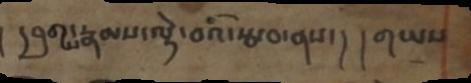། དབུགས་རྣམས་ལྟེ་བའི་རྩ་བ་ནས་། །གཡས
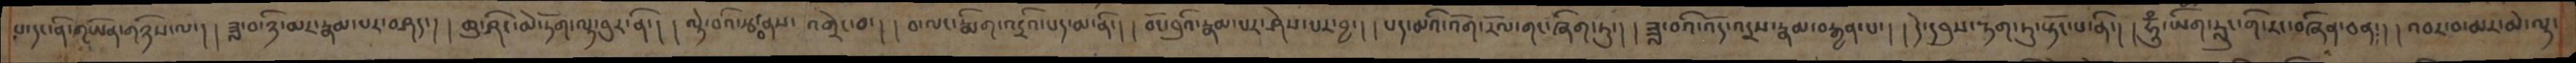པ་དང་ནི་གཡོན་གཉིས་ལ་། །ཟླ་བ་ཉི་མར་རྣམ་པར་བཤད་། །ཆུ་ཤིང་མེ་ཏོག་ལྟ་བུར་ནི་། །ལྟེ་བའི་རྩ་བ་ནས་འགྲེང་བ་། །བ་ལང་རྨིག་འདྲའི་པད་མ་ནི་། །བོང་བུའི་རྣམ་པར་ཤེས་པར་བྱ་། །པད་མའི་འོག་རོལ་གང་ཞིག་ཏུ་། །ཟླ་བའི་འོད་འདྲས་རྣམ་བརྒྱན་པ་། །དེ་དབུས་རྟག་ཏུ་སྟོང་པ་ནི་། །ཧཱུྃ་ཡིག་རླུང་གི་རང་བཞིན་ཅན་། །འབར་བ་མར་མེ་ལྟ་
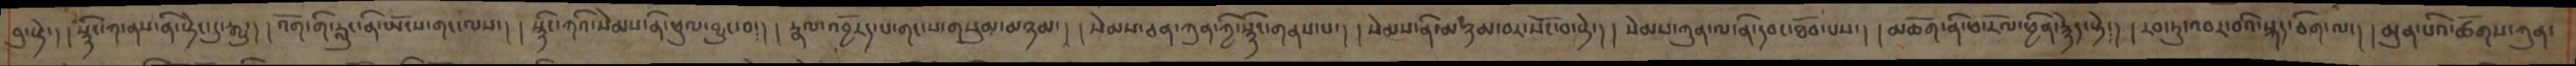བུ་སྟེ་། །སྙིང་ཀ་ནས་ནི་སྟེང་དུ་རྒྱུ་། །འོག་གི་རླུང་ནི་ཡོངས་གང་ལས་། །སྙིང་ཀའི་སེམས་ནི་ཕུལ་བྱུང་བ་། །རྣལ་འབྱོརད་པ་གང་ས་གསུམ་མཉམ་། །སེམས་ཅན་ཀུན་ཀྱི་སྙིང་གནས་པ་། །སེམས་ནི་མཉམ་བར་སོང་བ་སྟེ་། །སེམས་ཀུན་ལ་ནི་དབང་ཐོབ་པས་། །མཆོག་ནི་ཕ་རོལ་ཕྱིན་རྙེད་སྟེ་། །རབ་ཏུ་འབར་བའི་སྐད་ཅིག་ལ་། །མུན་པའི་ཚོགས་ཀུན་
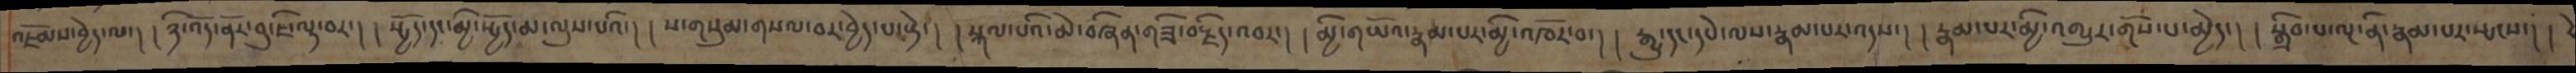འཇོམས་བྱེད་ལ་། །ཉི་འོད་ནོར་བུ་ཇི་ལྟ་བར་། །སྤྱོད་དང་མྱི་སྤྱོད་མ་ལུས་པའི་། །ས་གསུམ་གསལ་བར་བྱེད་པ་སྟེ་། །སྐལ་པའི་མེ་བཞིན་གཟི་བརྗིད་འབར་། །མྱི་གཡོའ་རྣམ་པར་མྱི་འཁོར་བ་། །རྒྱུ་དང་དཔེ་ལས་རྣམ་པར་འདས་། །རྣམ་པར་མྱི་འགྱུར་གོས་པ་མྱེད་། །སྒྲིབ་པ་ལྔ་ནི་རྣམ་པར་སྤངས་། །
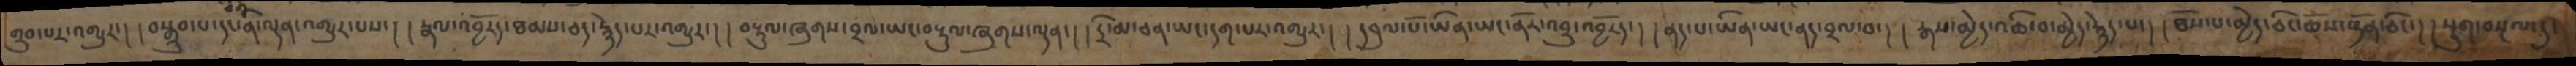གྲུབ་པར་འགྱུར་། །བསྒྲུབ་པ་དང་ནི་ལྡན་འགྱུར་པས་། །རྣལ་འབྱོརད་ཐམས་ཅད་རྙེད་པར་འགྱུར་། །བརྟུལ་ཞུགས་བྲལ་ཡང་བརྟུལ་ཞུགས་ལྡན་། །དྲི་མ་ཅན་ཡང་དག་པར་འགྱུར་། །དབུལ་པོ་ཡིན་ཡང་ནོར་འབྲུ་འབྱོརད་། །ནད་པ་ཡིན་ཡང་ནད་བྲལ་བ་། །རྒས་མྱེད་འཆི་བ་མྱེད་རྙེད་པ་། །ཐོས་པ་མྱེད་ཅིང་ཆོས་སྟོན་ཅིང་། །སྡུག་བསྔལ་དུ་
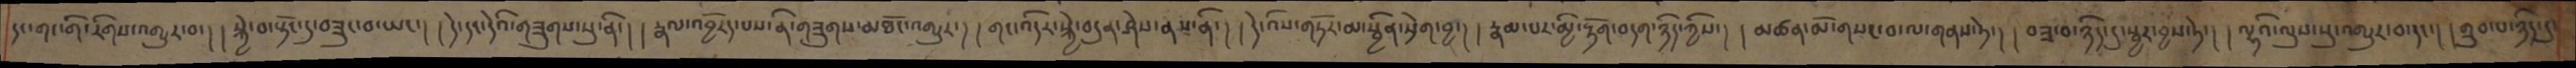དང་གང་གི་རིགས་འགྱུར་བ་། །སྐྱེ་བ་སྟོང་དུ་བཟུང་བ་ཡང་། །དེ་དང་དེའི་གཟུགས་སུ་ནི་། །རྣལ་འབྱོརད་པས་ནི་གཟུགས་མཐོང་འགྱུར་། །གང་འདིར་སྐྱེ་བདུན་ཤེས་ནས་ནི་། །དེ་འིས་གཏོར་མ་སྦྱིན་སྲེག་བྱ་། །རྣམ་པར་མྱི་རྟོག་བདག་ཉིད་ཀྱིས་། །མཚན་མེ་གསང་བ་ལ་གནས་ཏེ་། །བཟ་བ་ཉིད་དུ་སྦྱར་བྱས་ཏེ་། །ལྷའི་ལུས་སུ་འགྱུར་བ་དང་། །གྲུབ་པ་ཉིད་དུ་
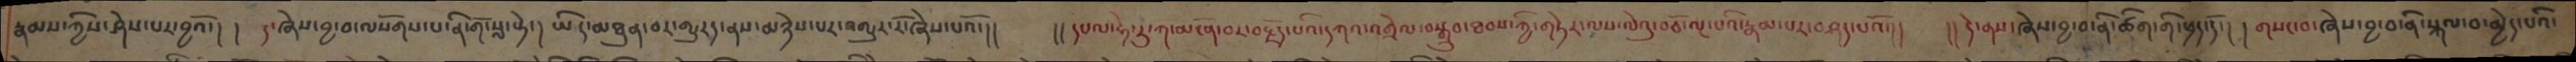རྣམས་ཀྱིས་ཤེས་པར་བྱའོ་། །ད་ཞེས་བྱ་བ་ལསོགས་པ་ནི་གོ་སླ་སྟེ་། ཡིད་མཐུན་བར་འགྱུརད་ནས་མཉེས་པར་འགྱུར་རོ་ཞེས་པའོ་།།   །།དཔལ་ཧེ་རུ་ཀ་མངོན་བར་བརྗོད་པའི་དཀའ་འགྲེལ་བསྒྲུབ་ཐབས་ཀྱི་གཏེར་ལས་ལེའུ་བཅོ་ལྔ་པའི་རྣམ་པར་བཤད་པའོ་།།   །།དེ་ནས་ཞེས་བྱ་བ་ནི་ཚིག་གི་ཕྲད་དོ་། །གསང་བ་ཞེས་བྱ་བ་ནི་སྐལ་བ་མྱེད་པའི་
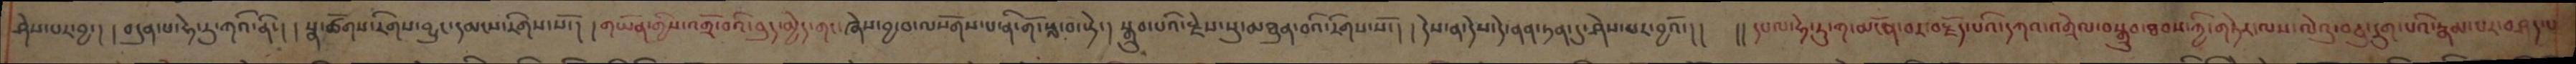ཤེས་པར་བྱ་། །བདུན་པ་ཧེ་རུ་ཀའི་ནི་། །སྣ་ཚོགས་རིགས་བྱུང་དམངས་རིགས་སོ་། །གཡོན་གྱིས་འགྲོ་བའི་བུད་མྱེད་གང་ཞེས་བྱ་བ་ལསོགས་པ་ནི་གོ་སླ་བ་སྟེ་། སྒྲུབ་པའི་རྗེས་སུ་མཐུན་བའི་རིགས་སོ་། །དེས་ན་དེས་དེ་ནན་ཏན་དུ་ཤེས་པར་བྱའོ་།།  །།དཔལ་ཧེ་རུ་ཀ་མངོན་བར་བརྗོད་པའི་དཀའ་འགྲེལ་བསྒྲུབ་ཐབས་ཀྱི་གཏེར་ལས་ལེའུ་བཅུ་དྲུག་པའི་རྣམ་པར་བཤད་པ་
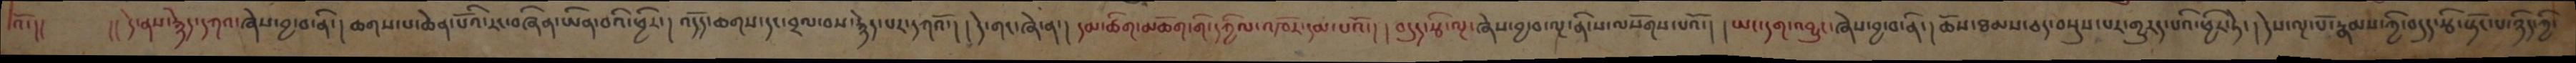འོ་།།  །།དེ་ནས་རྙེད་དཀའ་ཞེས་བྱ་བ་ནི་།ཆགས་པ་ཆེན་པོའི་རང་བཞིན་ཡིན་བའི་ཕྱིར་། འདོད་ཆགས་དང་བྲལ་བས་རྙེད་པར་དཀའོ་། །དེ་གང་ཞེ་ན་། དམ་ཚིག་མཆོག་གི་དཀྱིལ་འཁོར་དམ་པའོ་། །བདུད་རྩི་ལྔ་ཞེས་བྱ་བ་ལྔ་ནི་ས་ལསོགས་པའོ་། །ཡང་དག་འབྱུང་ཞེས་བྱ་བ་ནི་།ཆོས་ཐམས་ཅད་བསྡུས་པར་གྱུརད་པའི་ཕྱིར་ཏེ་། དེས་ལྔ་པོ་རྣམས་ཀྱི་བདུད་རྩི་སྟོང་པ་ཉིད་ཀྱི་
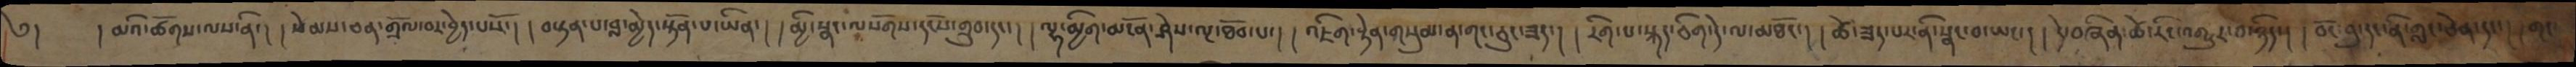༄།   །མའི་ཚོགས་ལས་ནི་། །སེམས་ཅན་གྲོལ་བར་བྱེད་པསོ་། །བསྟན་པ་བླ་མྱེད་སྟོན་པ་ཡིན་། །མྱི་སྣང་ལ་སོགས་དངོས་གྲུབ་དང་། །ལྷ་མྱིག་མངོན་ཤེས་ལྔ་ཐོབ་པ་། །འཇིག་རྟེན་གསུམ་ན་གང་ཅུང་ཟད་། །རིག་པ་སྐད་ཅིག་དེ་ལ་མཐོང་། །ཚེ་ཟད་པར་ནི་སྣང་བ་ཡང་། །དེ་བཞིན་ཚེ་རིང་འགྱུར་བ་ཉིད་། །བོང་བུ་དང་ནི་གླང་ཅེན་དང་། །གང་
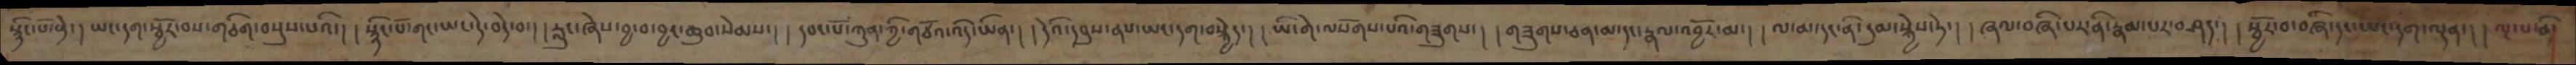སྙིང་པོ་སྟེ་། ཡང་དག་སྦྱོར་བས་གཅིག་བསྡུས་པའི་། །སྙིང་པོ་གང་ཡང་དེ་བདེ་བ་། །རླུང་ཞེས་བྱ་བ་བྱང་ཆུབ་སེམས་། །དབང་པོ་ཀུན་ཀྱི་གཙོའ་འདི་ཡིན་། །དེའི་དབུས་ནས་ཡང་དག་བསྐྱེད་། །ཡི་གེ་ལསོགས་པའི་གཟུགས་། །གཟུགས་ཅན་མ་དང་རྣལ་འབྱོར་མ་། །ལ་མ་དང་ནི་དུམ་སྐྱེས་ཏེ་། །ཞལ་བཞི་པར་ནི་རྣམ་པར་བཤད་། །སྦྱོར་བ་བཞི་དང་ཡང་དག་ལྡན་། །ལྔ་པ་ཅི་
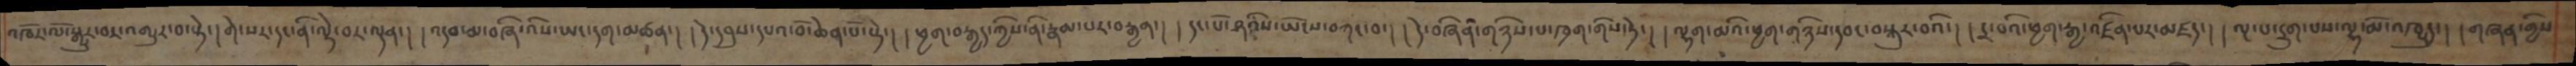འཁོར་ལོ་སྒྱུར་བར་འགྱུར་བ་སྟེ་།གེ་སར་དང་ནི་ལྟེ་བར་ལྡན་། །འདབ་མ་བཞི་འིས་ཡང་དག་མཚན་། །དེ་དབུས་དཔའ་བོ་ཆེན་པོ་སྟེ་། །ཕྱག་བརྒྱད་ཀྱིས་ནི་རྣམ་པར་བརྒྱན་། །དང་པོ་ཤའིས་ཡོངས་བཀང་བ་། །དེ་བཞིན་གཉིས་པ་ཁྲག་གིས་ཏེ་། །ལྷག་མའི་ཕྱག་གཉིས་དབང་བསྐུར་བའི་། །དྲ་བའི་ཕྱག་རྒྱ་འཛིན་པར་མཛད་། །ལྔ་པ་དྲུག་པས་ལྷ་མོ་འཁྱུད། །གཞན་གྱིས
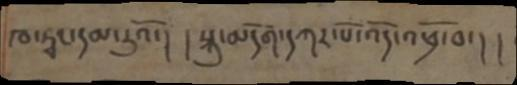ཁ་ཏྭང་དམ་རུའོ་། །སྐུ་མདོག་དཀར་པོ་འོད་འཕྲོ་བ་། །
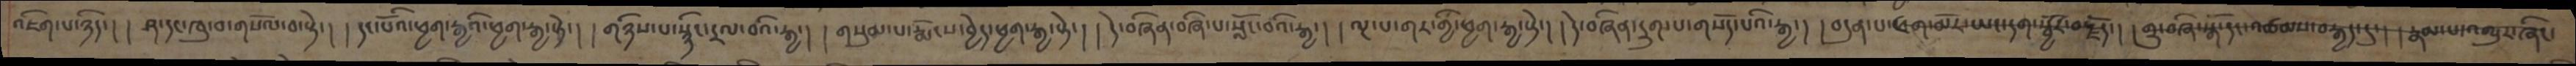འཇིག་པ་ཉིད་། །ཤ་དང་ཁུ་བ་གསོལ་བ་སྟེ་། །དང་པོའི་ཕྱག་རྒྱའི་ཕྱག་རྒྱ་སྟེ་། །གཉིས་པ་སྙིང་དྲལ་བའི་རྒྱ་། །གསུམ་པ་རྨོངས་བྱེད་ཕྱག་རྒྱ་སྟེ་། །ད་ེབཞིན་བཞི་པ་སློང་བའི་རྒྱ་། །ལྔ་པ་གར་གྱི་ཕྱག་རྒྱ་སྟེ་། །དེ་བཞིན་དྲུག་པ་གསོད་པའི་རྒྱ་། །བདུན་པ་ཕག་མོར་ཡང་དག་སྦྱོར་བརྗོད་། །གྲུ་བཞི་སྒོ་དང་འཚམས་བརྒྱད་དུ་། །རྣམ་པ་འགྱུར་ཞིང་
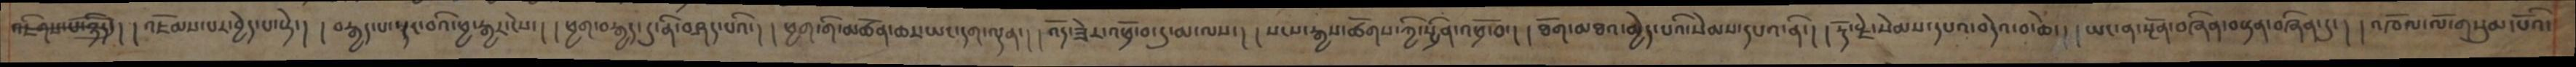འཇིགས་པོ་ཉིད་། །འཇོམས་པར་བྱེད་པ་སྟེ་། །བརྒྱད་པ་སྔར་བའི་ཕྱ་རྒྱར་ངེས་། ཕྱག་བརྒྱད་དུ་ནི་བཤད་པའི་། ཕྱག་གི་མཚོན་ཆར་ཡང་དག་ལྡན་། །འོད་ཟེར་འཕྲོ་བ་དུ་མ་ལས་། །སངས་རྒྱས་ཚོགས་ཀྱི་སྤྲིན་འཕྲོ་བ་། ཐོག་མཐའ་མྱེད་པའི་སེམས་དཔའ་ནི་། །རྡོ་རྗེ་སེམས་དཔའ་བདེའ་བ་ཆེ་། །ཡང་ན་སྔོན་བཞིན་བསྟན་བཞིན་དུ་། །འཁོལ་ལོ་གསུམ་པོའི་
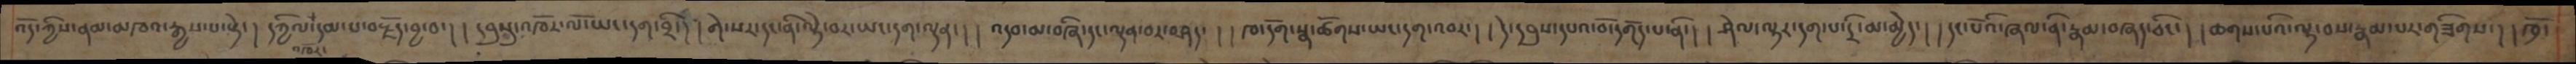འོད་ཀྱིས་ནམ་མཁའ་རྒྱས་པ་སྟེ་། །དཀྱིལ་འཁོར་དམ་པ་བརྗོད་བྱ་བ་། །དབུསུ་འཁོར་ལོ་ཡང་དག་བྲི་། །གེ་སར་དང་ནི་ལྟེ་བར་ཡང་དག་ལྡན་། །འདབ་མ་བཞི་དང་ལྡན་བར་བཤད་། །ཁ་དོག་སྣ་ཚོགས་ཡང་དག་འབར་། །དེ་དབུས་དཔའ་བོ་དགོད་པ་ནི་། །ཤེལ་ལྟར་དག་པ་དྲི་མ་མྱེད་། །དང་པོའི་ཞལ་ནི་རྣམ་བཞད་ཅིང་། །ཆགས་པའི་ལྟ་བས་རྣམ་པར་གཟིགས་། །ཁྲོ་
